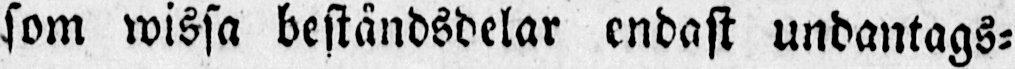som wissa beståndsdelar endast undantags-
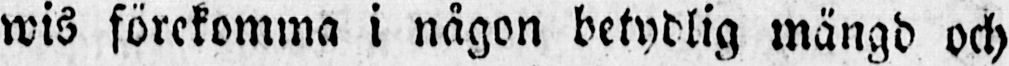wis förekomma i någon betydlig mängd och
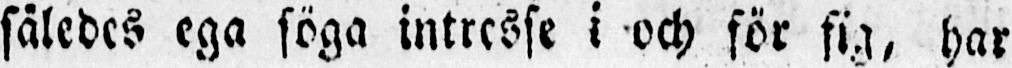således ega föga intresse i och för sig, har
